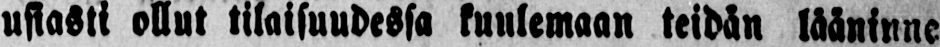usiasti ollut tilaisuudessa kuulemaan teidän lääninne
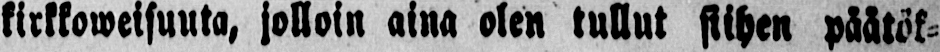kirkkoweisuuta, jolloin aina olen tullut siihen päätök-
